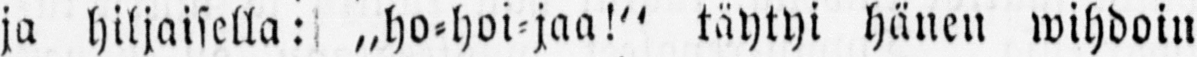ja hiljaisella: „ho-hoi-jaa!" täytyi hänen wihdoin
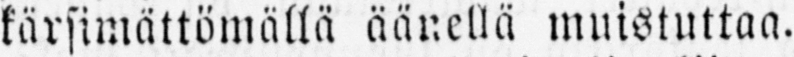kärsimättömällä äänellä muistuttaa.
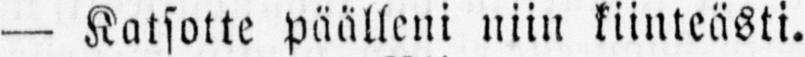— Katsotte päälleni niin kiinteästi.
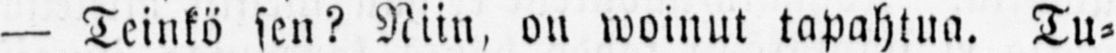— Teinkö sen? Niin, on woinut tapahtua. Tu-
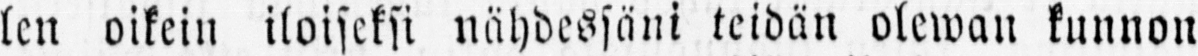len oikein iloiseksi nähdessäni teidän olewan kunnon
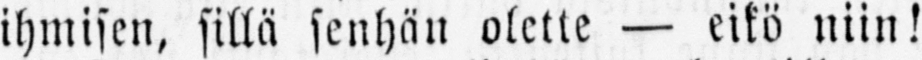ihmisen, sillä senhän olette — eikö niin?
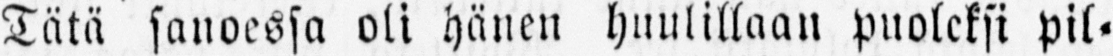Tätä sanoessa oli hänen huulillaan puoleksi pil-
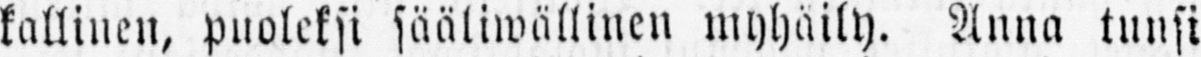kallinen, puoleksi sääliwällinen myhäily. Anna tunsi
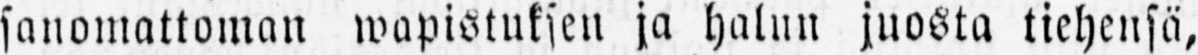sanomattoman wapistuksen ja halun juosta tiehensä,
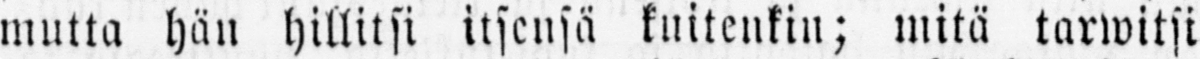mutta hän hillitsi itsensä kuitenkin; mitä tarwitsi
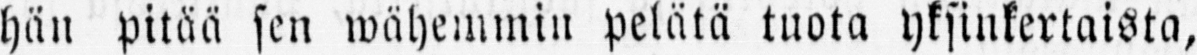hän pitää sen wähemmin pelätä tuota yksinkertaista,
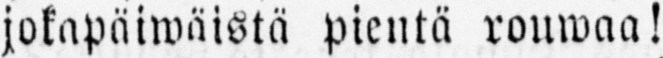jokapäiwaistä pientä rouwaa!
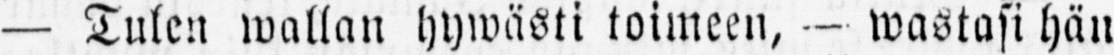— Tulen wallan hywästi toimeen, — wastasi hän
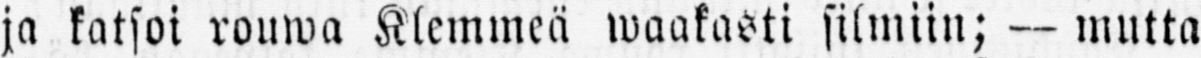ja katsoi rouwa Klemmeä waakasti silmiin; — mutta
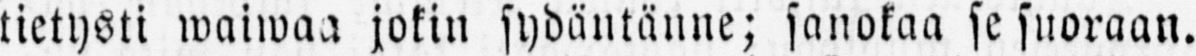tietysti waiwaa jokin sydäntänne; sanokaa se suoraan.
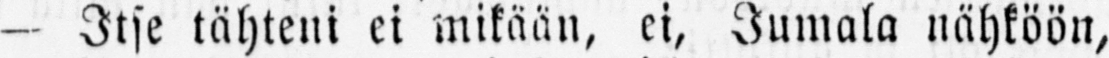— Itse tähteni ei mikään, ei, Jumala nähköön,
